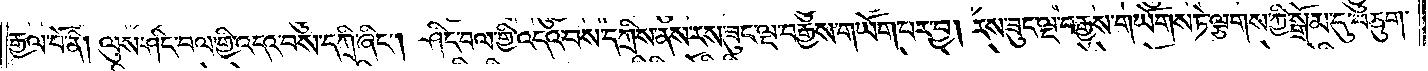རྒྱལ་པོ་ནི། ལུས་ཤིང་བལ་གྱི་འདའ་བས་དཀྲི་ཞིང༌། ཤིང་བལ་གྱི་འདའ་བས་དཀྲིས་ནས་རས་ཟུང་ལྔ་བརྒྱས་གཡོག་པར་བྱ། རས་ཟུང་ལྔ་བརྒྱས་གཡོགས་ཏེ་ལྕགས་ཀྱི་སྒྲོམ་དུ་བཅུག་
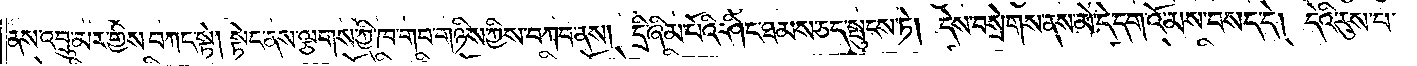ནས་འབྲུ་མར་གྱིས་བཀང་སྟེ། སྟེང་ནས་ལྕགས་ཀྱི་ཁ་གབ་གཉིས་ཀྱིས་བཀབ་ནས། དྲི་ཞིམ་པོའི་ཤིང་ཐམས་ཅད་སྤུངས་ཏེ། དེས་བསྲེགས་ནས་མེ་དེ་དག་འོ་མས་བསད་དེ། དེའི་རུས་པ་
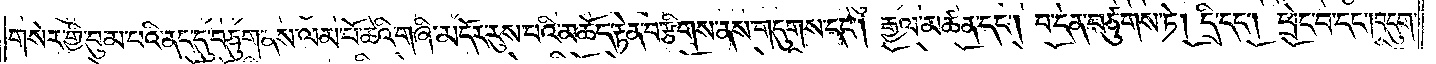གསེར་གྱི་བུམ་པའི་ནང་དུ་བཅུག་ནས་ལམ་པོ་ཆེའི་གཞི་མདོར་རུས་པའི་མཆོད་རྟེན་བརྩིགས་ནས་གདུགས་དང༌། རྒྱལ་མཚན་དང༌། བ་དན་བཙུགས་ཏེ། དྲི་དང༌། ཕྲེང་བ་དང༌། བདུག་
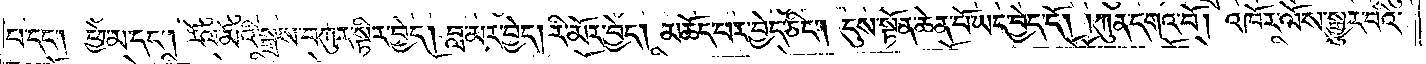པ་དང༌། ཕྱེ་མ་དང༌། རོལ་མོའི་སྒྲས་བཀུར་སྟིར་བྱེད། བླ་མར་བྱེད། རི་མོར་བྱེད། མཆོད་པར་བྱེད་ཅིང༌། དུས་སྟོན་ཆེན་པོ་ཡང་བྱེད་དོ། །ཀུན་དགའ་བོ། འཁོར་ལོས་སྒྱུར་བའི་
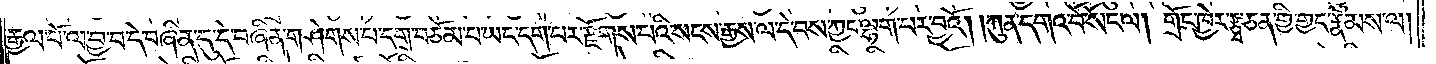རྒྱལ་པོ་ལ་བྱ་བ་དེ་བཞིན་དུ་དེ་བཞིན་གཤེགས་པ་དགྲ་བཅོམ་པ་ཡང་དག་པར་རྫོགས་པའི་སངས་རྒྱས་ལ་དེ་བས་ཀྱང་ལྷག་པར་བྱའོ། །ཀུན་དགའ་བོ་སོང་ལ། གྲོང་ཁྱེར་རྩྭ་ཅན་གྱི་གྱད་རྣམས་ལ།
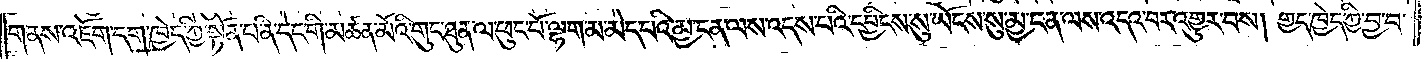གནས་འཇོག་དག་ཁྱེད་ཀྱི་སྟོན་པ་ནི་དེང་གི་མཚན་མོའི་གུང་ཐུན་ལ་ཕུང་པོ་ལྷག་མ་མེད་པའི་མྱ་ངན་ལས་འདས་པའི་དབྱིངས་སུ་ཡོངས་སུ་མྱ་ངན་ལས་འདའ་བར་འགྱུར་བས། གྱད་ཁྱེད་ཀྱི་བྱ་བ་
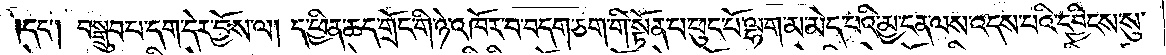དང༌། བསྒྲུབ་པ་དག་དེར་བྱོས་ལ། ད་ཕྱིན་ཆད་གྲོང་གི་ཉེ་འཁོར་བ་བདག་ཅག་གི་སྟོན་པ་ཕུང་པོ་ལྷག་མ་མེད་པའི་མྱ་ངན་ལས་འདས་པའི་དབྱིངས་སུ་
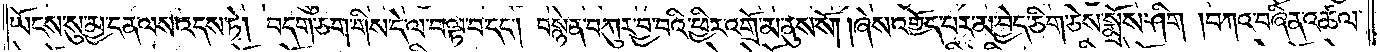ཡོངས་སུ་མྱ་ངན་ལས་འདས་ཏེ། བདག་ཅག་གིས་དེ་ལ་བལྟ་བ་དང༌། བསྙེན་བཀུར་བྱ་བའི་ཕྱིར་འགྲོ་མ་ནུས་སོ། །ཞེས་འགྱོད་པར་མ་བྱེད་ཅིག་ཅེས་སྨྲོས་ཤིག །བཀའ་བཞིན་འཚལ་
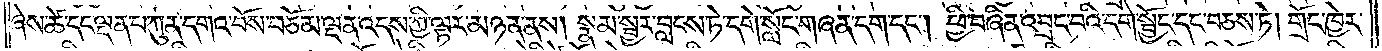ཞེས་ཚེ་དང་ལྡན་པ་ཀུན་དགའ་བོས་བཅོམ་ལྡན་འདས་ཀྱི་ལྟར་མཉན་ནས། སྣམ་སྦྱར་བླངས་ཏེ་དགེ་སློང་གཞན་དག་དང༌། ཕྱི་བཞིན་འབྲང་བའི་དགེ་སྦྱོང་དང་བཅས་ཏེ། གྲོང་ཁྱེར་
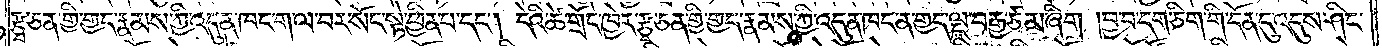རྩྭ་ཅན་གྱི་གྱད་རྣམས་ཀྱི་འདུན་ཁང་ག་ལ་བར་སོང་སྟེ་ཕྱིན་པ་དང༌། དེའི་ཚེ་གྲོང་ཁྱེར་རྩྭ་ཅན་གྱི་གྱད་རྣམས་ཀྱི་འདུན་ཁང་ན་གྱད་ལྔ་བརྒྱ་ཙམ་ཞིག །བྱ་བ་དག་ཅིག་གི་དོན་དུ་འདུས་ཤིང་
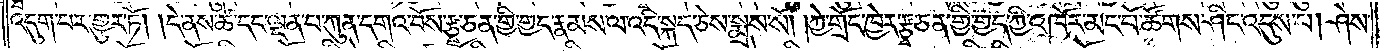འདུག་པར་གྱུར་ཏོ། །དེ་ནས་ཚེ་དང་ལྡན་པ་ཀུན་དགའ་བོས་རྩྭ་ཅན་གྱི་གྱད་རྣམས་ལ་འདི་སྐད་ཅེས་སྨྲས་སོ། །ཀྱེ་གྲོང་ཁྱེར་རྩྭ་ཅན་གྱི་གྱད་ཀྱི་འཁོར་མང་པོ་ཚོགས་ཤིང་འདུས་པ། ཤེས་
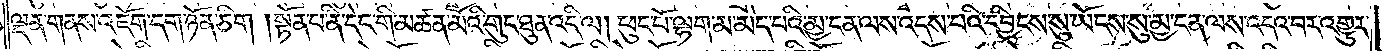ལྡན་གནས་འཇོག་དག་ཉོན་ཅིག །སྟོན་པ་ནི་དེང་གི་མཚན་མོའི་གུང་ཐུན་འདི་ལ། ཕུང་པོ་ལྷག་མ་མེད་པའི་མྱ་ངན་ལས་འདས་པའི་དབྱིངས་སུ་ཡོངས་སུ་མྱ་ངན་ལས་འདའ་བར་འགྱུར་
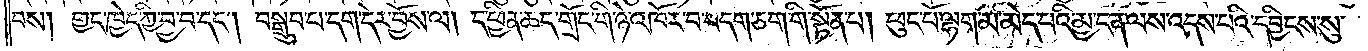བས། གྱད་ཁྱེད་ཀྱི་བྱ་བ་དང༌། བསྒྲུབ་པ་དག་དེར་བྱོས་ལ། ད་ཕྱིན་ཆད་གྲོང་གི་ཉེ་འཁོར་བ་བདག་ཅག་གི་སྟོན་པ། ཕུང་པོ་ལྷག་མ་མེད་པའི་མྱ་ངན་ལས་འདས་པའི་དབྱིངས་སུ་
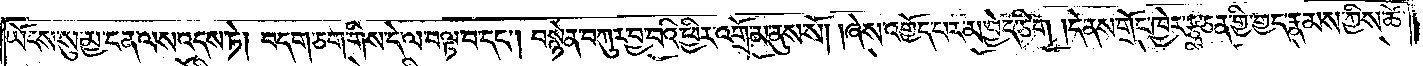ཡོངས་སུ་མྱ་ངན་ལས་འདས་ཏེ། བདག་ཅག་གིས་དེ་ལ་བལྟ་བ་དང༌། བསྙེན་བཀུར་བྱ་བའི་ཕྱིར་འགྲོ་མ་ནུས་སོ། །ཞེས་འགྱོད་པར་མ་བྱེད་ཅིག །དེ་ནས་གྲོང་ཁྱེར་རྩྭ་ཅན་གྱི་གྱད་རྣམས་ཀྱིས་ཚེ་
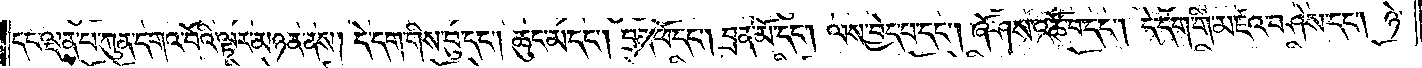དང་ལྡན་པ་ཀུན་དགའ་བོའི་ལྟར་མཉན་ནས། དེ་དག་གིས་བུ་དང༌། ཆུང་མ་དང༌། བྲན་ཕོ་དང༌། བྲན་མོ་དང༌། ལས་བྱེད་པ་དང༌། ཞོ་ཤས་འཚོ་བ་དང༌། དེ་དག་གི་མཛའ་བཤེས་དང༌། ཉེ་
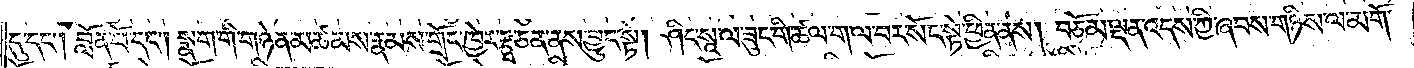དུ་དང༌། བློན་པོ་དང༌། སྣག་གི་གཉེན་མཚམས་རྣམས་གྲོང་ཁྱེར་རྩྭ་ཅན་ནས་བྱུང་སྟེ། ཤིང་སཱ་ལ་ཟུང་གི་ཚལ་ག་ལ་བར་སོང་སྟེ་ཕྱིན་ནས། བཅོམ་ལྡན་འདས་ཀྱི་ཞབས་གཉིས་ལ་མགོ་
